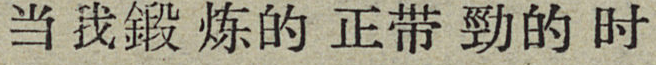当我鍛炼的正带勁的时
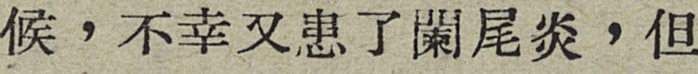候，不幸又患了闌尾炎，但
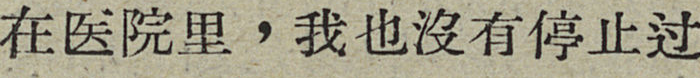在医院里，我也沒有停止过
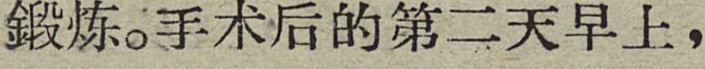鍛炼。手术后的第二天早上，
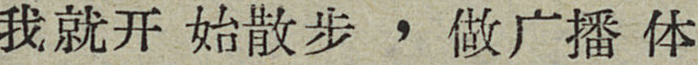我就开始散布，做广播体
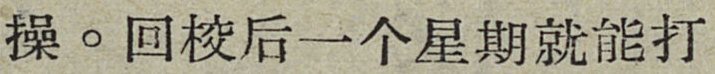操。回校后一个星期就能打
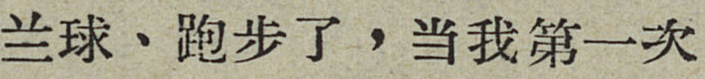兰球、跑步了，当我第一次
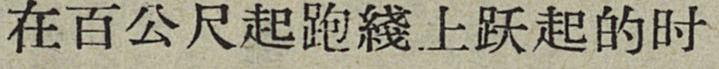在百公尺起跑綫上跃起的时
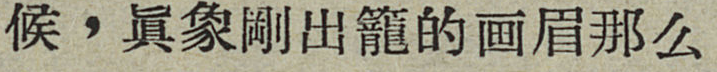候，眞象剛出籠的画眉那么
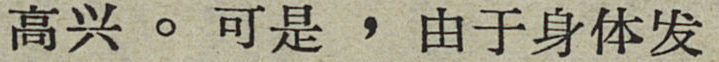高兴。可是，由于身体发
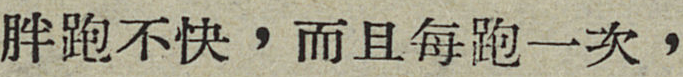胖跑不快，而且每跑一次，
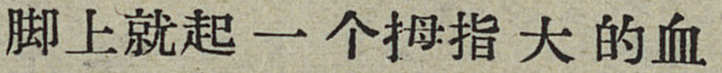脚上就起一个拇指大的血
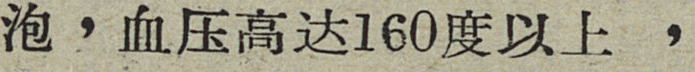泡，血压高达160度以上，
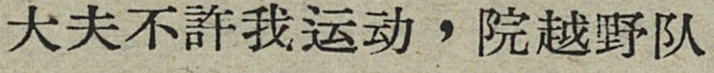大夫不許我运动，院越野队
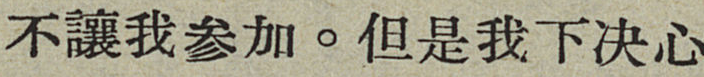不讓我参加。但是我下决心
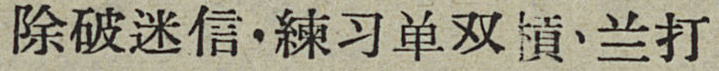除破迷信，練习单双槓、兰打
